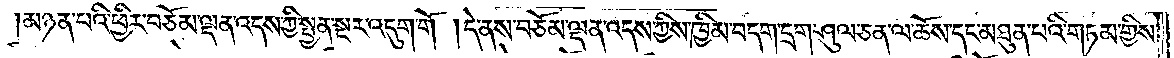མཉན་པའི་ཕྱིར་བཅོམ་ལྡན་འདས་ཀྱི་སྤྱན་སྔར་འདུག་གོ །དེ་ནས་བཅོམ་ལྡན་འདས་ཀྱིས་ཁྱིམ་བདག་དྲག་ཤུལ་ཅན་ལ་ཆོས་དང་མཐུན་པའི་གཏམ་གྱིས་
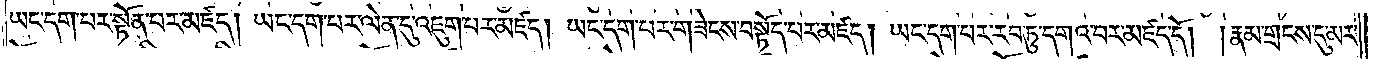ཡང་དག་པར་སྟོན་པར་མཛད། ཡང་དག་པར་ལེན་དུ་འཇུག་པར་མཛད། ཡང་དག་པར་གཟེངས་བསྟོད་པར་མཛད། ཡང་དག་པར་རབ་ཏུ་དགའ་བར་མཛད་དོ། །རྣམ་གྲངས་དུ་མར་
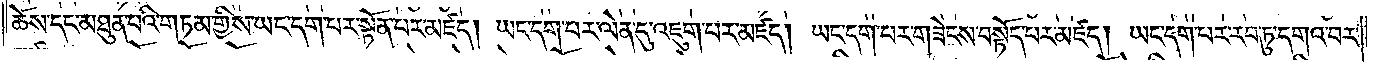ཆོས་དང་མཐུན་པའི་གཏམ་གྱིས་ཡང་དག་པར་སྟོན་པར་མཛད། ཡང་དག་པར་ལེན་དུ་འཇུག་པར་མཛད། ཡང་དག་པར་གཟེངས་བསྟོད་པར་མཛད། ཡང་དག་པར་རབ་ཏུ་དགའ་བར་
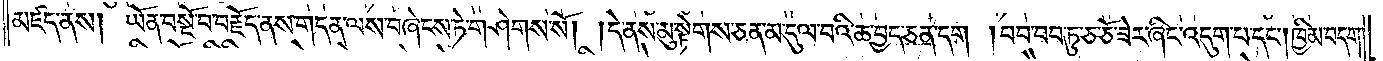མཛད་ནས། ཡོན་བསྔོ་བ་བརྗོད་ནས་གདན་ལས་བཞེངས་ཏེ་གཤེགས་སོ། །དེ་ནས་མུ་སྟེགས་ཅན་མ་དུལ་བའི་ཆ་བྱད་ཅན་དག །བབ་བབ་ཏུ་ཅ་ཅོ་ཟེར་ཞིང་འདུག་པ་དང༌། ཁྱིམ་བདག་
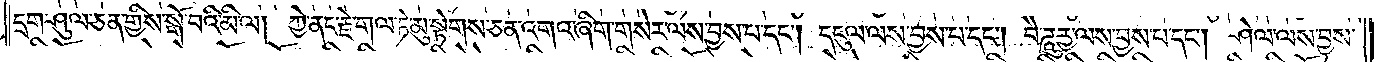དྲག་ཤུལ་ཅན་གྱིས་སྒོ་བའི་མི་ལ། ཀྱེ་ནང་རྗེ་གལ་ཏེ་མུ་སྟེགས་ཅན་འགའ་ཞིག་གསེར་ལས་བྱས་པ་དང༌། དངུལ་ལས་བྱས་པ་དང༌། བཻ་ཌཱུཪྻ་ལས་བྱས་པ་དང༌། ཤེལ་ལས་བྱས་
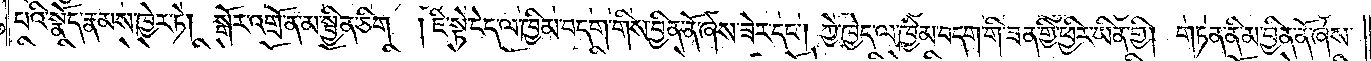པའི་སྣོད་རྣམས་ཁྱེར་ཏེ། སྒོར་འགྲོ་ན་མ་སྦྱིན་ཅིག །ཇི་སྟེ་ངེད་ལ་ཁྱིམ་བདག་གིས་བྱིན་ནོ་ཞེས་ཟེར་དང༌། ཀྱེ་ཁྱེད་ལ་ཁྱིམ་བདག་གི་ཟན་གྱི་ཕྱིར་ཡིན་གྱི། གཏན་ནི་མ་བྱིན་ནོ་ཞེས་
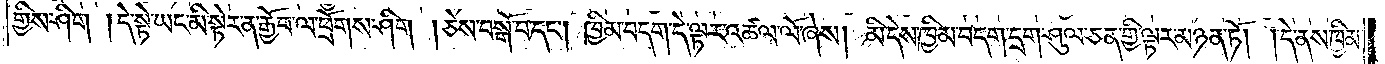གྱིས་ཤིག །དེ་སྟེ་ཡང་མི་སྟེར་ན་རྒྱོབ་ལ་ཕྲོགས་ཤིག །ཅེས་བསྒོ་བ་དང༌། ཁྱིམ་བདག་དེ་ལྟར་འཚལ་ལོ་ཞེས། མི་དེས་ཁྱིམ་བདག་དྲག་ཤུལ་ཅན་གྱི་ལྟར་མཉན་ཏོ། །དེ་ནས་ཁྱིམ་
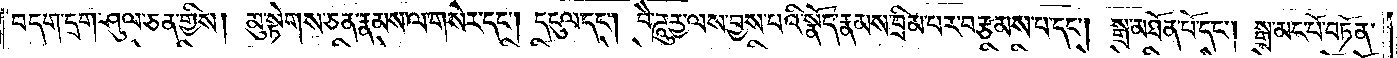བདག་དྲག་ཤུལ་ཅན་གྱིས། མུ་སྟེགས་ཅན་རྣམས་ལ་གསེར་དང༌། དངུལ་དང༌། བཻ་ཌཱུཪྻ་ལས་བྱས་པའི་སྣོད་རྣམས་བྲིམ་པར་བརྩམས་པ་དང༌། སྒྲ་མཐོན་པོ་དང༌། སྒྲ་མང་པོ་བཏོན་
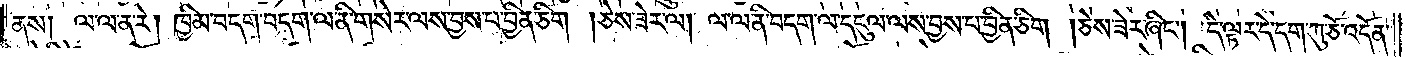ནས། ལ་ལ་ན་རེ། ཁྱིམ་བདག་བདག་ལ་ནི་གསེར་ལས་བྱས་པ་བྱིན་ཅིག །ཅེས་ཟེར་ལ། ལ་ལ་ནི་བདག་ལ་དངུལ་ལས་བྱས་པ་བྱིན་ཅིག །ཅེས་ཟེར་ཞིང༌། དེ་ལྟར་དེ་དག་ཀུ་ཅོ་འདོན་
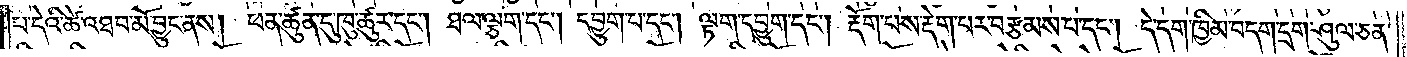པ་དེའི་ཚེ་འཐབ་མོ་བྱུང་ནས། ཕན་ཚུན་དུ་ཁུ་ཚུར་དང༌། ཐལ་ལྕག་དང༌། དབྱུག་པ་དང༌། ལྟག་དབྱུག་དང༌། རྡོག་པས་རྡེག་པར་བརྩམས་པ་དང༌། དེ་དག་ཁྱིམ་བདག་དྲག་ཤུལ་ཅན་
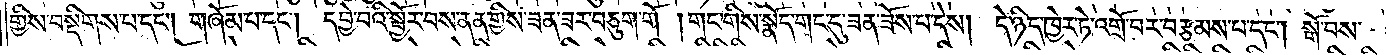གྱིས་བསྡིགས་པ་དང༌། གཞོམ་པ་དང༌། དབྱེ་བའི་སྦྱོར་བས་ནན་གྱིས་ཟན་ཟར་བཅུག་གོ །གང་གིས་སྣོད་གང་དུ་ཟན་ཟོས་པ་དེས། དེ་ཉིད་ཁྱེར་ཏེ་འགྲོ་བར་བརྩམས་པ་དང༌། སྒོ་བས་
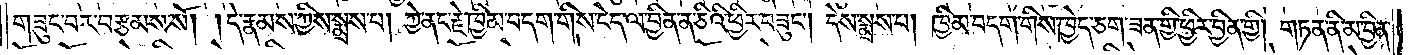གཟུང་བར་བརྩམས་སོ། །དེ་རྣམས་ཀྱིས་སྨྲས་པ། ཀྱེ་ནང་རྗེ་ཁྱིམ་བདག་གིས་ངེད་ལ་བྱིན་ན་ཅིའི་ཕྱིར་བཟུང༌། དེས་སྨྲས་པ། ཁྱིམ་བདག་གིས་ཁྱེད་ཅག་ཟན་གྱི་ཕྱིར་བྱིན་གྱི། གཏན་ནི་མ་བྱིན་
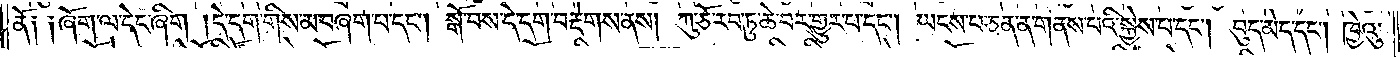ནོ༑ ༑ཞོག་ལ་དེང་ཞིག །དེ་དག་གིས་མ་བཞག་པ་དང༌། སྒོ་བས་དེ་དག་བརྡེགས་ནས། ཀུ་ཅོ་རབ་ཏུ་ཆེ་བར་གྱུར་པ་དང༌། ཡངས་པ་ཅན་ན་གནས་པའི་སྐྱེས་པ་དང༌། བུད་མེད་དང༌། ཁྱེའུ་
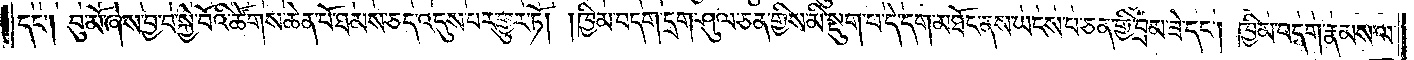དང༌། བུ་མོ་ཞེས་བྱ་བ་སྐྱེ་བོའི་ཚོགས་ཆེན་པོ་ཐམས་ཅད་འདུས་པར་གྱུར་ཏོ། །ཁྱིམ་བདག་དྲག་ཤུལ་ཅན་གྱིས་མི་སྡུག་པ་དེ་དག་མཐོང་ནས་ཡངས་པ་ཅན་གྱི་བྲམ་ཟེ་དང༌། ཁྱིམ་བདག་རྣམས་ལ་
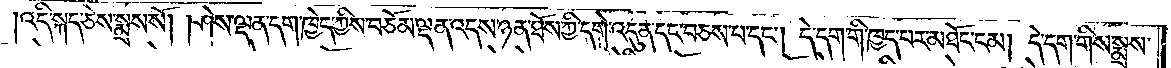འདི་སྐད་ཅེས་སྨྲས་སོ། །ཤེས་ལྡན་དག་ཁྱེད་ཀྱིས་བཅོམ་ལྡན་འདས་ཉན་ཐོས་ཀྱི་དགེ་འདུན་དང་བཅས་པ་དང༌། དེ་དག་གི་ཁྱད་པར་མཐོང་ངམ། དེ་དག་གིས་སྨྲས་
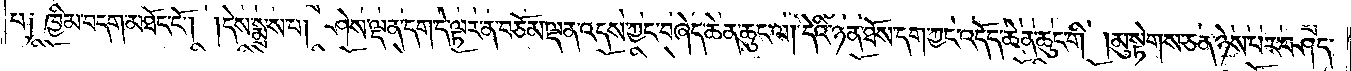པ༑ ཁྱིམ་བདག་མཐོང་ངོ༌། །དེས་སྨྲས་པ། ཤེས་ལྡན་དག་དེ་ལྟར་ན་བཅོམ་ལྡན་འདས་ཀྱང་བཞེད་ཆེན་ཆུང་ལ། དེའི་ཉན་ཐོས་དག་ཀྱང་འདོད་ཆེན་ཆུང་གི །མུ་སྟེགས་ཅན་ཉེས་པར་བཤད་
